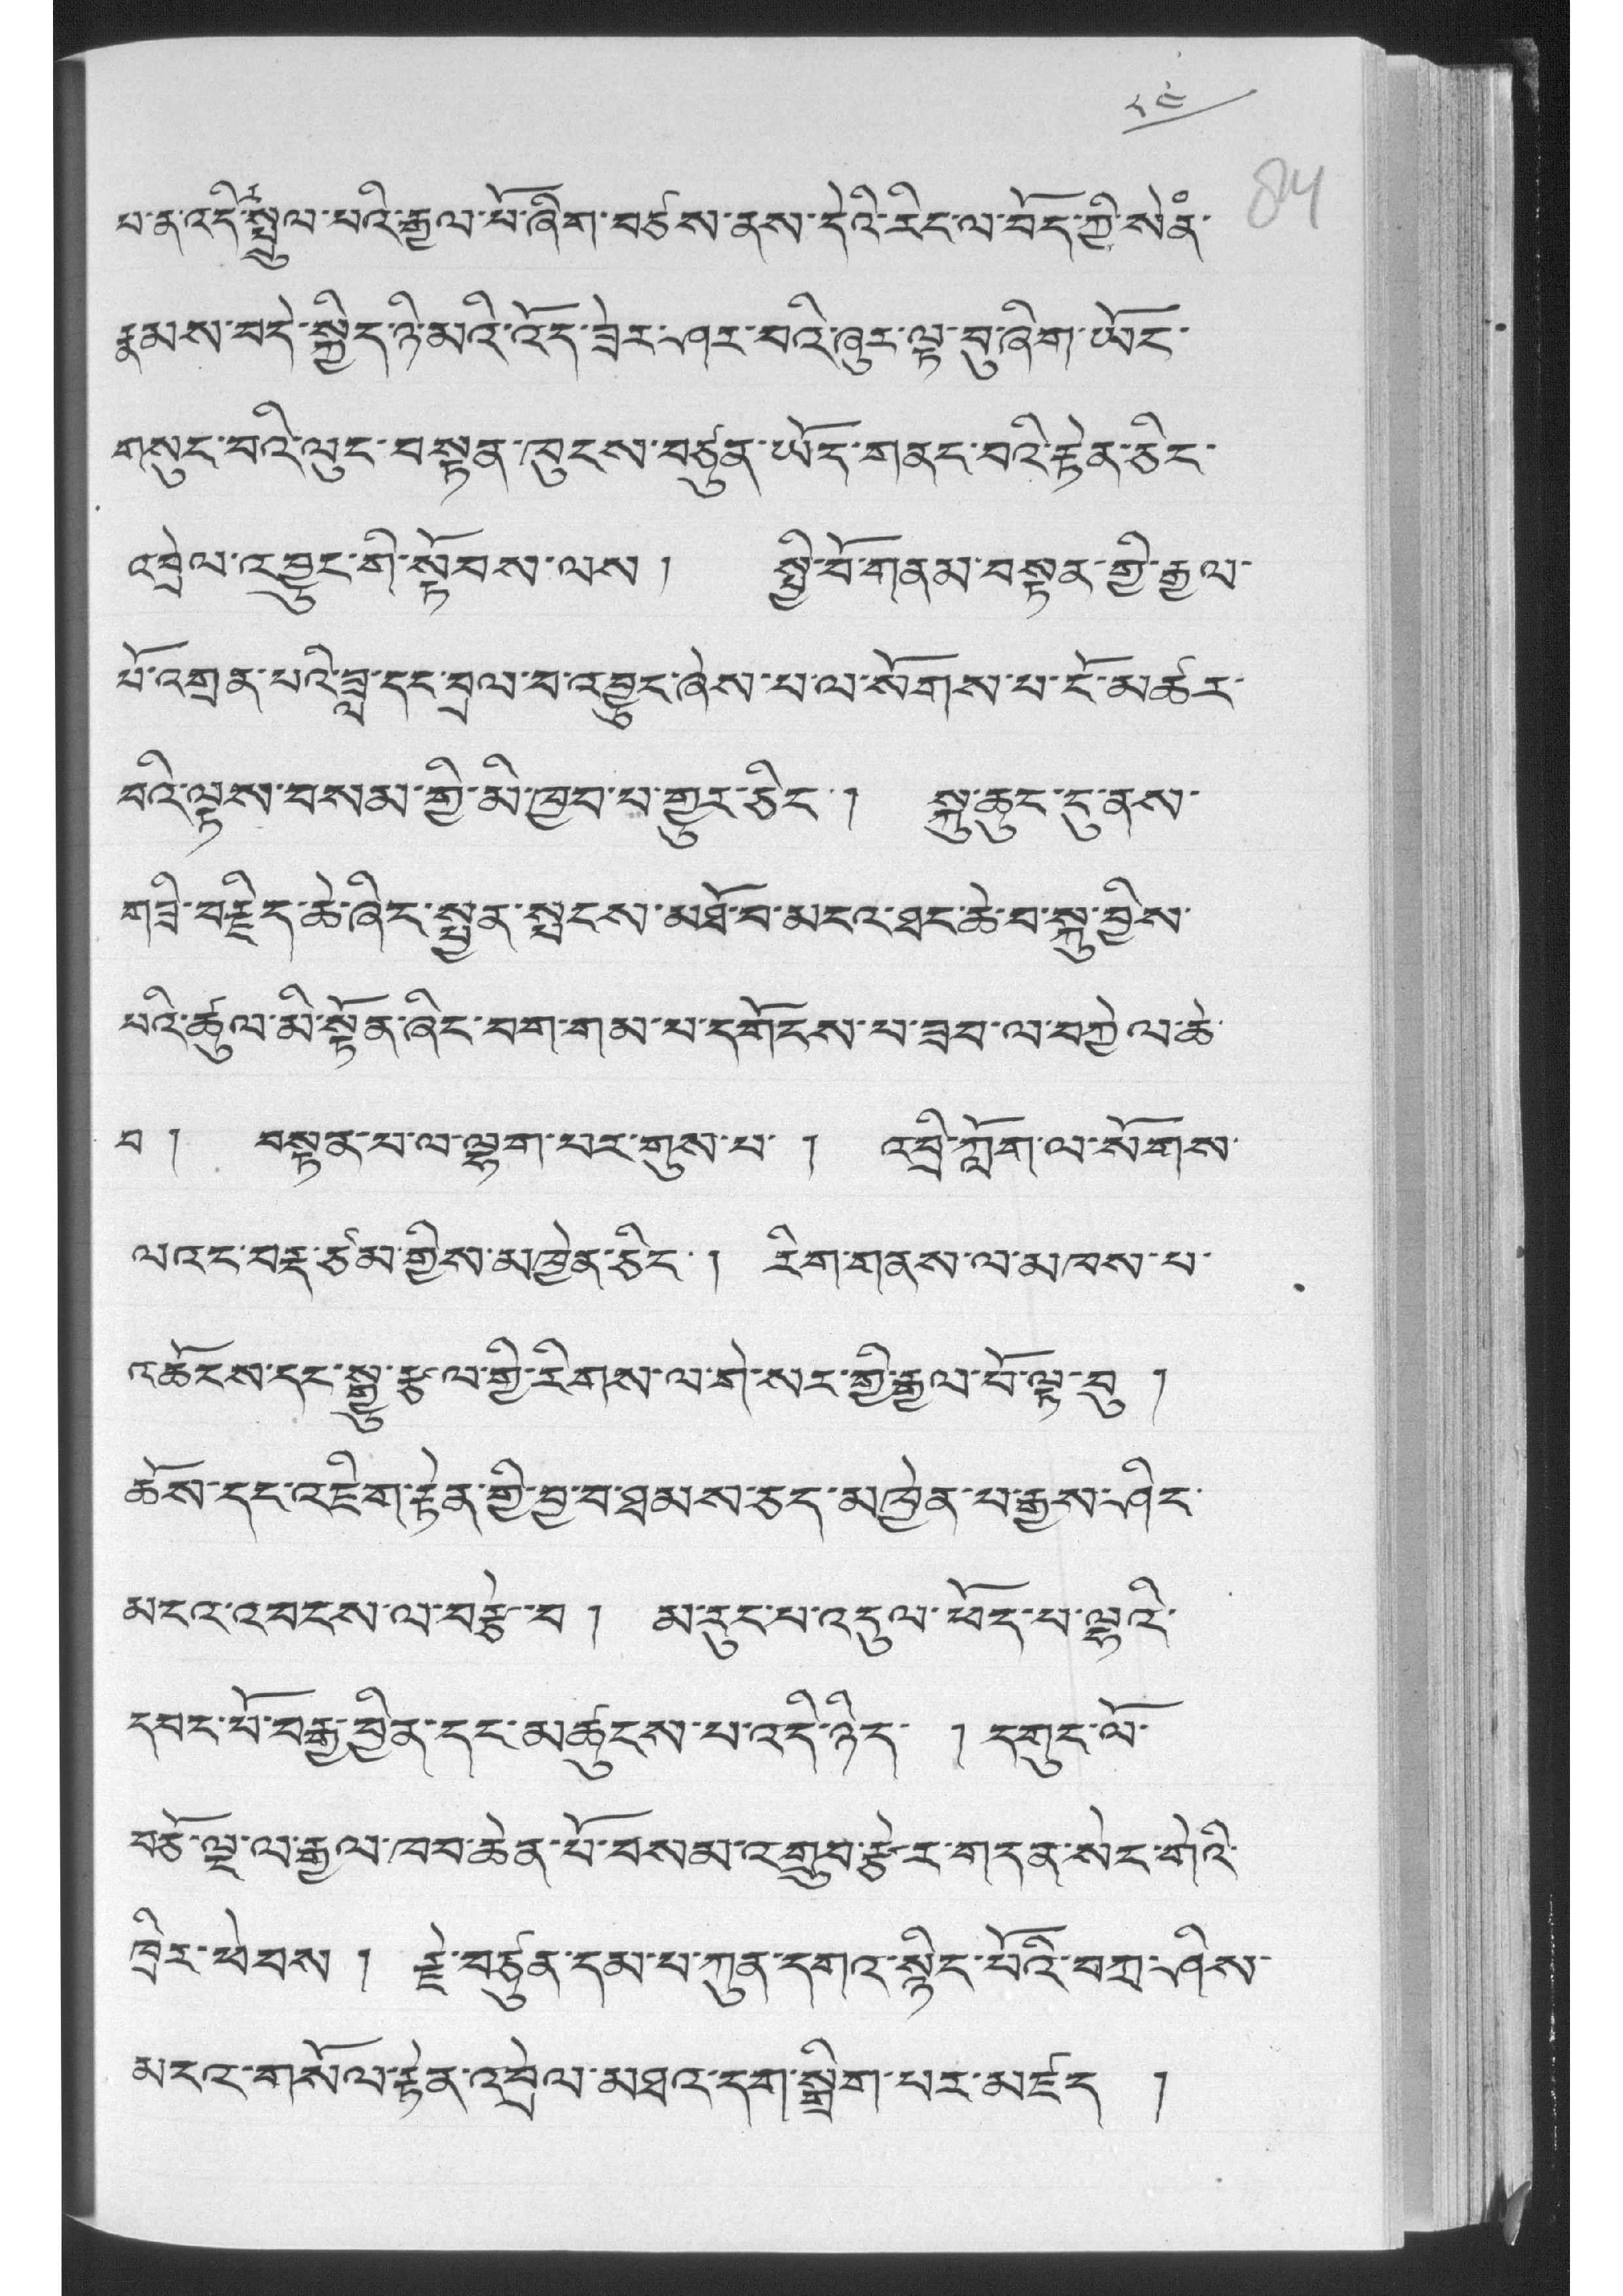༨༤
པ་ན་འདིར་སྤྲུལ་པའི་རྒྱལ་པོ་ཞིག་བཙས་ནས་དེའི་རིང་ལ་བོད་ཀྱི་སེནཾ་
རྣམས་བདེ་སྐྱིད་ཉི་མའི་འོད་ཟེར་ཤར་བའི་ཞུར་ལྟ་བུ་ཞིག་ཡོང་
གསུང་བའི་ལུང་བསྟན་ཁུངས་བཙུན་ཡོད་གནང་བའི་རྟེན་ཅིང་
འབྲེལ་འབྱུང་གི་སྟོབས་ལས། སྤྱི་བོ་གནམ་བསྟན་གྱི་རྒྱལ་
པོ་འགྲན་པའི་ཟླ་དང་བྲལ་བ་འབྱུང་ཞེས་པ་ལ་སོགས་པ་ངོ་མཚར་
བའི་ལྟས་བསམ་གྱི་མི་ཁྱབ་པ་གྱུར་ཅིང་། སྐུ་ཆུང་ངུ་ནས་
གཟི་བརྗིད་ཆེ་ཞིང་སྤྱན་སྤངས་མཐོ་བ་མངའ་ཐང་ཆེ་བ་སྐུ་བྱིས་
པའི་ཚུལ་མི་སྟོན་ཞིང་བག་གམ་པ་དགོངས་པ་ཟབ་ལ་བཀྱེལ་ཆེ་
བ ། བསྟན་པ་ལ་ལྷག་པར་གུས་པ་ ། འབྲི་ཀློག་ལ་སོགས་
ལའང་བརྡ་ཙམ་གྱིས་མཁྱེན་ཅིང་། རིག་གནས་ལ་མཁས་པ་
འཆོངས་དང་སྒྱུ་རྩ་ལ་གྱི་རིགས་ལ་གེ་སར་གྱི་རྒྱལ་པོ་ལྟ་བུ །
ཆོས་དང་འཇིག་རྟེན་གྱི་བྱ་བ་ཐམས་ཅད་མཁྱེན་པ་རྒྱས་ཤིང་
མངའ་འབངས་ལ་བརྩེ་བ ། མ་རུང་པ་འདུལ་ཕོད་པ་ལྷའི་
དབང་པོ་བརྒྱ་ཕྱིན་དང་མཚུངས་པ་འདི་ཉིད་ ། དགུང་ལོ་
བཅོ་ལྔ་ལ་རྒྱལ་ཁབ་ཆེན་པོ་བསམ་འགྲུབ་རྩེར་གདན་སེང་གེའི་
ཁྲིར་ཕེབས། རྗེ་བཙུན་དམ་པ་ཀུན་དགའ་སྙིང་པོའི་བཀྲ་ཤིས་
མངའ་གསོལ་རྟེན་འབྲེལ་མཐའ་དག་སྒྲིག་པར་མཛད །
